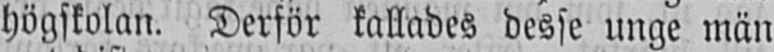högskolan. Derför kallades desse unge män
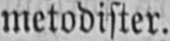metodister.
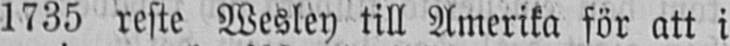1735 reste Wesley till Amerika för att i
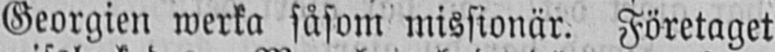Georgien werka såsom missionär. Företaget
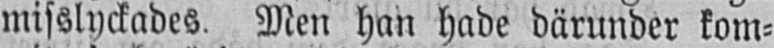misslyckades. Men han hade därunder kom-
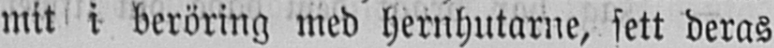mit i beröring med hernhutarne, sett deras
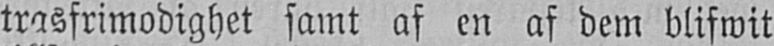trasfrimodighet samt af en af dem blifwit
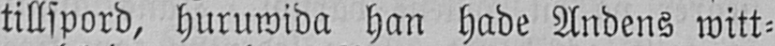tillspord, huruwida han hade Andens witt-
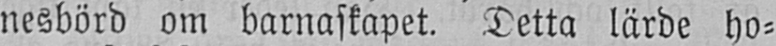nesbörd om barnaskapet. Detta lärde ho-
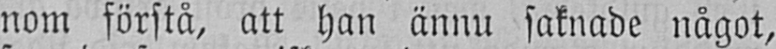nom förstå, att han ännu saknade något,
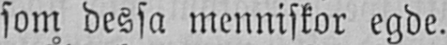som dessa menniskor egde.
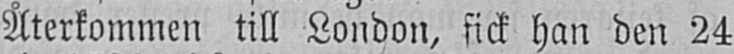Återkommen till London, fick han den 24
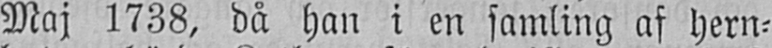Maj 1738, då han i en samling af hern-
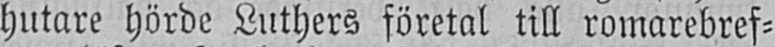hutare hörde Luthers företal till romarebref-
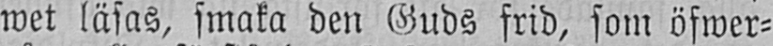wet läsas, smaka den Guds frid, som öfwer-
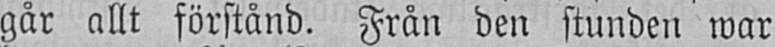går allt förstånd. Från den stunden war
